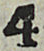4
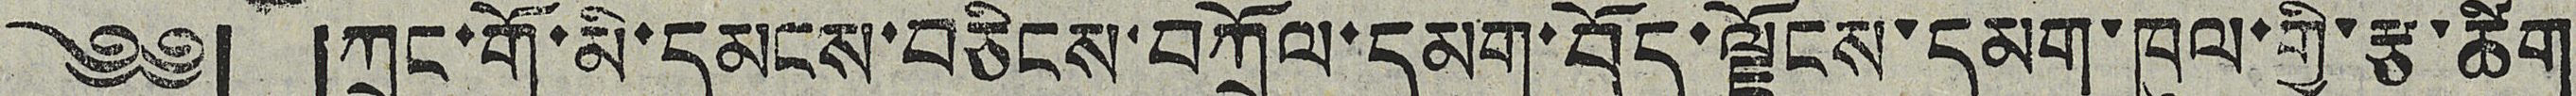༄༅། །ཀྲུང་གོ་མི་དམངས་བཅིངས་བཀྲོལ་དམག་བོད་ལྗོངས་དམག་ཁུལ་གྱི་རྩ་ཚིག
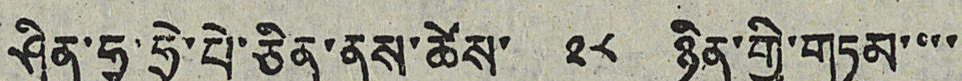ཤིན་ཧྭ་ཧྲེ་པེ་ཅིན་ནས་ཚེས་ ༢༨ ཉིན་གྱི་གཏམ་་་་་
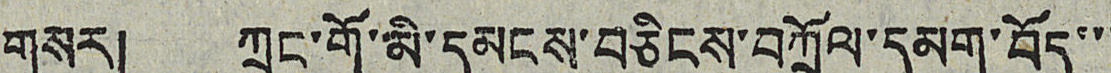གསར། ཀྲུང་གོ་མི་དམངས་བཅིངས་བཀྲོལ་དམག་བོད་་་
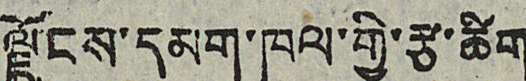ལྗོངས་དམག་ཁུལ་གྱི་རྩ་ཚིག
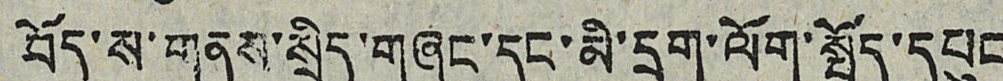བོད་ས་གནས་སྲིད་གཞུང་དང་མི་དྲག་ལོག་སྤྱོད་དཔུང
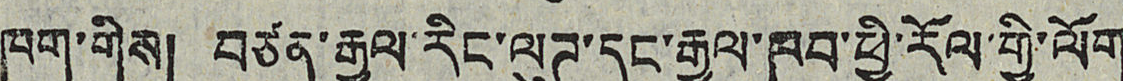ཁག་གིས། བཙན་རྒྱལ་རིང་ལུཊ་དང་རྒྱལ་ཁབ་ཕྱི་རོལ་གྱི་ལོག
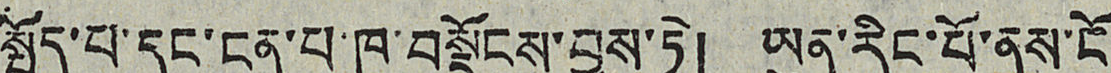སྤྱོད་པ་དང་ངན་པ་ཁ་བསྡོངས་བྱས་ཏེ། ཡུན་རིང་པོ་ནས་ངོ་
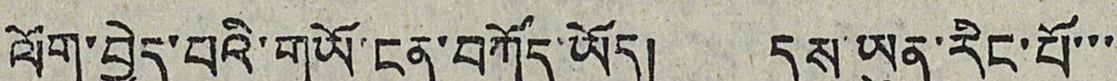ལོག་བྱེད་པའི་གཡོ་ངན་བཀོད་ཡོད། དུས་ཡུན་རིང་པོ་་་་
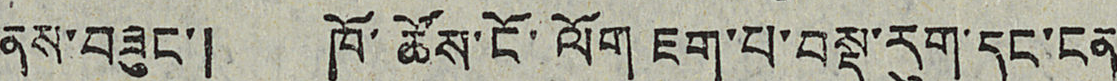ནས་བཟུང་། ཁོ་ཚོས་ངོ་ལོག ཇག་པ་བསྡུ་རུག་དང་ངན
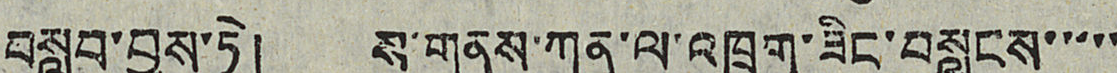བསླབ་བྱས་ཏེ། ས་གནས་ཀུན་ལ་འཁྲུག་ཟིང་བསླངས་་་་་
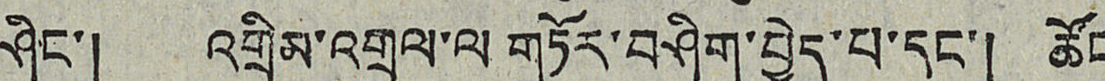ཤིང་། འགྲིམ་འགྲུལ་ལ གཏོར་བཤིག་བྱེད་པ་དང་། ཚོང
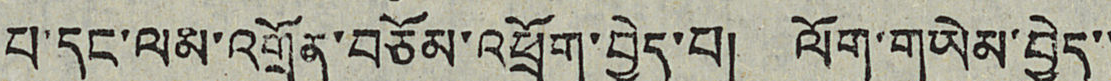པ་དང་ལམ་འགྲོན་བཅོམ་འཕྲོག་བྱེད་པ། ལོག་གཡེམ་བྱེད་་
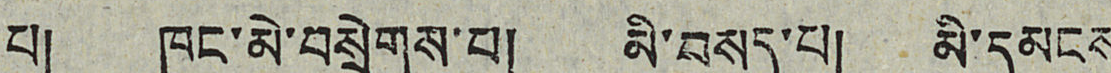པ། ཁང་མེ་བསྲེགས་པ། མི་བསད་པ། མི་དམངས
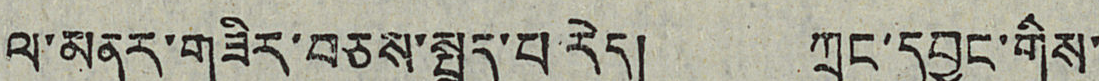ལ་མནར་གཟིར་བཅས་སྤྲད་པ་རེད། ཀྲུང་དབྱང་གིས་་
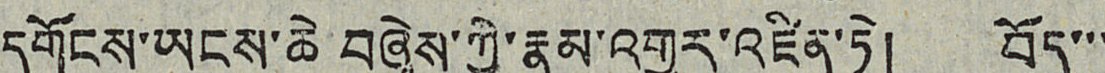དགོངས་ཡངས་ཆེ བཞེས་ཀྱི་རྣམ་འགྱུར་འཛིན་ཏེ། བོད་་་
